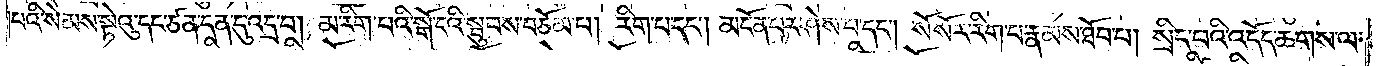པའི་སེམས་སྟེའུ་དང་ཙན་དན་དུ་འདྲ་བ། མ་རིག་པའི་སྒོ་ངའི་སྦུབས་བཅོམ་པ། རིག་པ་དང༌། མངོན་པར་ཤེས་པ་དང༌། སོ་སོར་རིག་པ་རྣམས་ཐོབ་པ། སྲིད་པའི་འདོད་ཆགས་ལ་
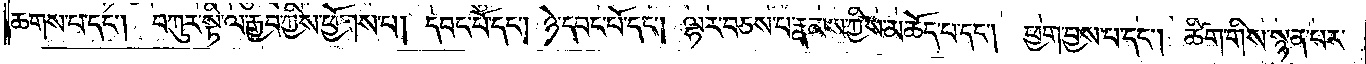ཆགས་པ་དང༌། བཀུར་སྟི་ལ་རྒྱབ་ཀྱིས་ཕྱོགས་པ། དབང་པོ་དང༌། ཉེ་དབང་པོ་དང༌། ལྷར་བཅས་པ་རྣམས་ཀྱིས་མཆོད་པ་དང༌། ཕྱག་བྱས་པ་དང༌། ཚིག་གིས་སྙན་པར་
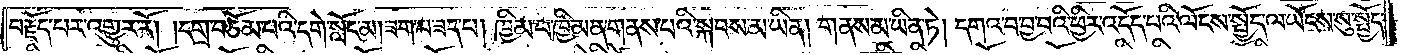བརྗོད་པར་འགྱུར་རོ། །དགྲ་བཅོམ་པའི་དགེ་སློང་མ། ཟག་པ་ཟད་པ། ཁྱིམ་པ་ཁྱིམ་ན་གནས་པའི་སྐབས་མ་ཡིན། གནས་མ་ཡིན་ཏེ། དགའ་བ་བྱ་བའི་ཕྱིར་འདོད་པའི་ལོངས་སྤྱོད་ལ་ཡོངས་སུ་སྤྱོད་
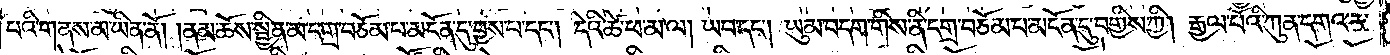པའི་གནས་མ་ཡིན་ནོ། །ནམ་ཆོས་སྦྱིན་མ་དགྲ་བཅོམ་པ་མངོན་དུ་བྱས་པ་དང༌། དེའི་ཚེ་ཕ་མ་ལ། ཡབ་དང༌། ཡུམ་བདག་གིས་ནི་དགྲ་བཅོམ་པ་མངོན་དུ་བགྱིས་ཀྱི། རྒྱལ་པོའི་ཀུན་དགའ་ར་
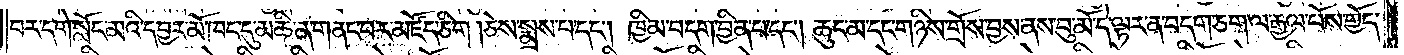བར་དགེ་སློང་མའི་དབྱར་མོ་ཁང་དུ་མཆི་ན་གནང་བར་མཛོད་ཅིག །ཅེས་སྨྲས་པ་དང༌། ཁྱིམ་བདག་བྱིན་པ་དང༌། ཆུང་མ་དང་གཉིས་གྲོས་བྱས་ནས་བུ་མོ་དེ་ལྟར་ན་བདག་ཅག་ལ་རྒྱལ་པོས་གྱོད་
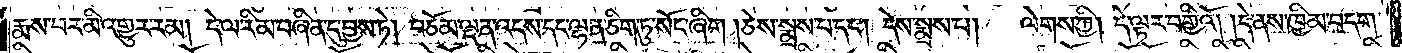རྨས་པར་མི་འགྱུར་རམ། དེ་ལ་རིམ་བཞིན་དུ་བྱས་ཏེ། བཅོམ་ལྡན་འདས་དང་ལྷན་ཅིག་ཏུ་སོང་ཞིག །ཅེས་སྨྲས་པ་དང༌། དེས་སྨྲས་པ། ལེགས་ཀྱི། དེ་ལྟར་བགྱིའོ། །དེ་ནས་ཁྱིམ་བདག་
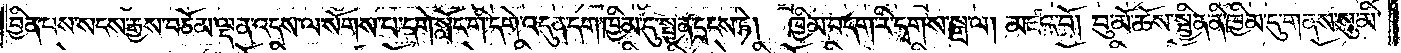བྱིན་པས་སངས་རྒྱས་བཅོམ་ལྡན་འདས་ལ་སོགས་པ་དགེ་སློང་གི་དགེ་འདུན་དག་ཁྱིམ་དུ་སྤྱན་དྲངས་ཏེ། ཁྱིམ་བདག་རི་དྭགས་སྒྲ་ལ། མཛའ་བོ། བུ་མོ་ཆོས་སྦྱིན་ནི་ཁྱིམ་དུ་གནས་སུ་མི་
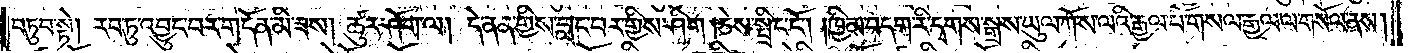བཏུབ་སྟེ། རབ་ཏུ་འབྱུང་བར་གདོན་མི་ཟས། ཚུར་ཤོག་ལ། དེ་ནན་གྱིས་བླང་བར་གྱིས་ཤིག །ཅེས་སྤྲིང་ངོ༌། །ཁྱིམ་བདག་རི་དྭགས་སྒྲས་ཡུལ་ཀོ་ས་ལའི་རྒྱལ་པོ་གསལ་རྒྱལ་ལ་གསོལ་ནས།
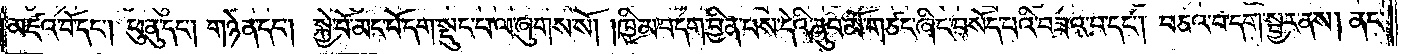མཛའ་བོ་དང༌། ཕུ་ནུ་དང༌། གཉེན་དང༌། སྐྱེ་བོ་མང་པོ་དག་སྡུད་པ་ལ་ཞུགས་སོ། །ཁྱིམ་བདག་བྱིན་པས་དེའི་ནུབ་མོ་གཙང་ཞིང་བསོད་པའི་བཟའ་བ་དང༌། བཅའ་བ་དག་སྦྱར་ནས། ནང་
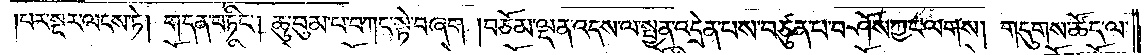པར་སྔར་ལངས་ཏེ། གདན་བཏིང༌། ཆུ་བུམ་པ་བཀང་སྟེ་བཞག །བཅོམ་ལྡན་འདས་ལ་སྤྱན་འདྲེན་པས་བཙུན་པ་བཤོས་ཀྱང་ལགས། གདུགས་ཚོད་ལ་
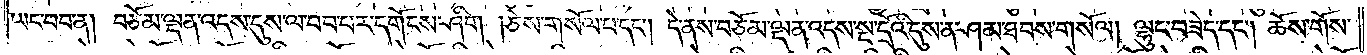ཡང་བབ་ན། བཅོམ་ལྡན་འདས་དུས་ལ་བབ་པར་དགོངས་ཤིག །ཅེས་གསོལ་པ་དང༌། དེ་ནས་བཅོམ་ལྡན་འདས་སྔ་དྲོའི་དུས་ན་ཤམ་ཐབས་གསོལ། ལྷུང་བཟེད་དང༌། ཆོས་གོས་
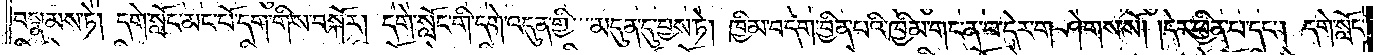བསྣམས་ཏེ། དགེ་སློང་མང་པོ་དག་གིས་བསྐོར། དགེ་སློང་གི་དགེ་འདུན་གྱི་མདུན་དུ་བྱས་ཏེ། ཁྱིམ་བདག་བྱིན་པའི་ཁྱིམ་གང་ན་བ་དེར་གཤེགས་སོ། །དེར་ཕྱིན་པ་དང༌། དགེ་སློང་
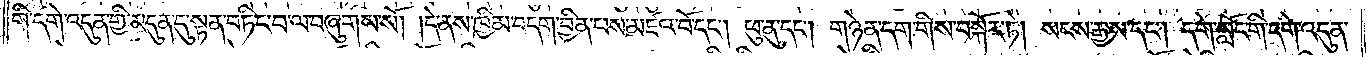གི་དགེ་འདུན་གྱི་མདུན་དུ་སྟན་བཏིང་བ་ལ་བཞུགས་སོ། །དེ་ནས་ཁྱིམ་བདག་བྱིན་པས་མཛའ་བོ་དང༌། ཕུ་ནུ་དང༌། གཉེན་དག་གིས་བསྐོར་ཏེ། སངས་རྒྱས་དང༌། དགེ་སློང་གི་དགེ་འདུན་
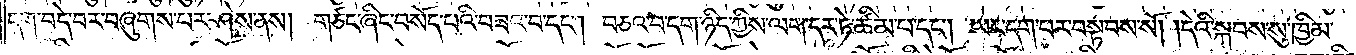དག་བདེ་བར་བཞུགས་པར་ཤེས་ནས། གཙང་ཞིང་བསོད་པའི་བཟའ་བ་དང༌། བཅའ་བ་དག་ཉིད་ཀྱིས་ལག་དར་ཏེ་ཚིམ་པ་དང༌། ཡང་དག་པར་བསྟབས་སོ། །དེའི་སྐབས་སུ་ཁྱིམ་
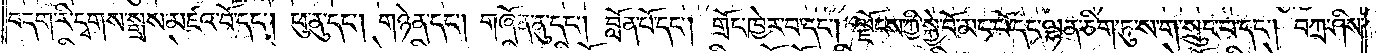བདག་རི་དྭགས་སྒྲས་མཛའ་བོ་དང༌། ཕུ་ནུ་དང༌། གཉེན་དང༌། གཞོན་ནུ་དང༌། བློན་པོ་དང༌། གྲོང་ཁྱེར་བ་དང༌། ལྗོངས་ཀྱི་སྐྱེ་བོ་མང་པོ་དང་ལྷན་ཅིག་ཏུ་ས་ག་སྲུང་བ་དང༌། བཀྲ་ཤིས་
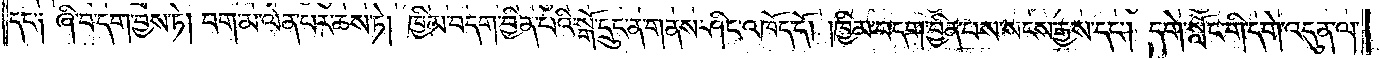དང་༑ ཞི་བ་དག་བྱས་ཏེ། བག་མ་ལེན་པར་ཆས་ཏེ། ཁྱིམ་བདག་བྱིན་པའི་སྒོ་དྲུང་ན་གནས་ཤིང་འཁོད་དོ། །ཁྱིམ་བདག་བྱིན་པས་སངས་རྒྱས་དང༌། དགེ་སློང་གི་དགེ་འདུན་ལ་
